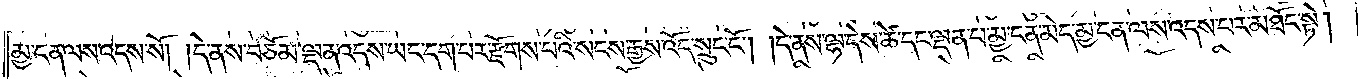མྱ་ངན་ལས་འདས་སོ། །དེ་ནས་བཅོམ་ལྡན་འདས་ཡང་དག་པར་རྫོགས་པའི་སངས་རྒྱས་འོད་སྲུང་ངོ༌། །དེ་ནས་ལྷ་དེས་ཚེ་དང་ལྡན་པ་མྱ་ངན་མེད་མྱ་ངན་ལས་འདས་པར་མཐོང་སྟེ།
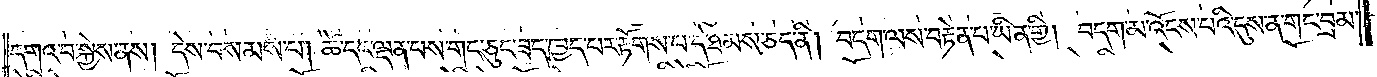དགའ་བ་སྐྱེས་ནས། དེས་བསམས་པ། ཚེ་དང་ལྡན་པས་གང་ཅུང་ཟད་ཁྱད་པར་རྟོགས་པ་དེ་ཐམས་ཅད་ནི། བདག་ལས་བརྟེན་པ་ཡིན་གྱི། བདག་མ་འོངས་པའི་དུས་ན་གང་བྲམ་
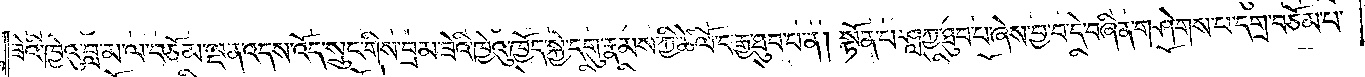ཟེའི་ཁྱེའུ་བླ་མ་ལ་བཅོམ་ལྡན་འདས་འོད་སྲུང་གིས་བྲམ་ཟེའི་ཁྱེའུ་ཁྱོད་སྐྱེ་དགུ་རྣམས་ཀྱི་ཚེ་ལོ་བརྒྱ་ཐུབ་པ་ན། སྟོན་པ་ཤཱཀྱ་ཐུབ་པ་ཞེས་བྱ་བ་དེ་བཞིན་གཤེགས་པ་དགྲ་བཅོམ་པ་
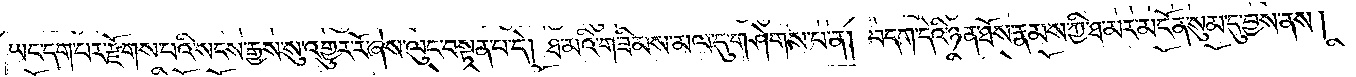ཡང་དག་པར་རྫོགས་པའི་སངས་རྒྱས་སུ་འགྱུར་རོ་ཞེས་ལུང་བསྟན་པ་དེ། ཐ་མའི་གཟིམས་མལ་དུ་གཤེགས་པ་ན། བདག་དེའི་ཉན་ཐོས་རྣམས་ཀྱི་ཐ་མར་མངོན་སུམ་དུ་བྱས་ནས།
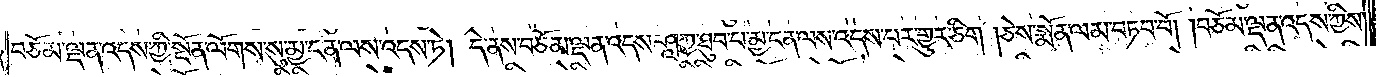བཅོམ་ལྡན་འདས་ཀྱི་སྔོན་ལོགས་སུ་མྱ་ངན་ལས་འདས་ཏེ། དེ་ནས་བཅོམ་ལྡན་འདས་ཤཱཀྱ་ཐུབ་པ་མྱ་ངན་ལས་འདས་པར་གྱུར་ཅིག །ཅེས་སྨོན་ལམ་བཏབ་བོ། །བཅོམ་ལྡན་འདས་ཀྱིས་
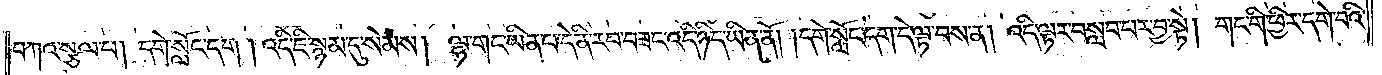བཀའ་སྩལ་པ། དགེ་སློང་དག །འདི་ཇི་སྙམ་དུ་སེམས། ལྷ་གང་ཡིན་པ་དེ་ནི་རབ་བཟང་འདི་ཉིད་ཡིན་ནོ། །དགེ་སློང་དག་དེ་ལྟ་བས་ན། འདི་ལྟར་བསླབ་པར་བྱ་སྟེ། གང་གི་ཕྱིར་དགེ་བའི་
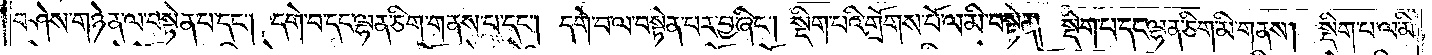བཤེས་གཉེན་ལ་བསྟེན་པ་དང༌། དགེ་བ་དང་ལྷན་ཅིག་གནས་པ་དང༌། དགེ་བ་ལ་བསྟེན་པར་བྱ་ཞིང༌། སྡིག་པའི་གྲོགས་པོ་ལ་མི་བསྟེན། སྡིག་པ་དང་ལྷན་ཅིག་མི་གནས། སྡིག་པ་ལ་མི་
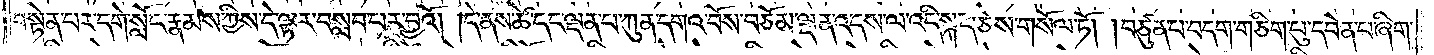བསྟེན་པར་དགེ་སློང་རྣམས་ཀྱིས་དེ་ལྟར་བསླབ་པར་བྱའོ། །དེ་ནས་ཚེ་དང་ལྡན་པ་ཀུན་དགའ་བོས་བཅོམ་ལྡན་འདས་ལ་འདི་སྐད་ཅེས་གསོལ་ཏོ། །བཙུན་པ་བདག་གཅིག་པུ་དབེན་པ་ཞིག་
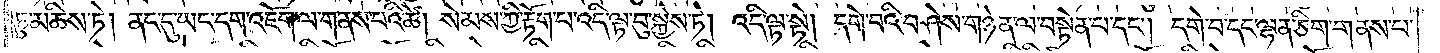ཏུ་མཆིས་ཏེ། ནང་དུ་ཡང་དག་འཇོག་ལ་གནས་པའི་ཚེ། སེམས་ཀྱི་རྟོག་པ་འདི་ལྟ་བུ་སྐྱེས་ཏེ། འདི་ལྟ་སྟེ། དགེ་བའི་བཤེས་གཉེན་ལ་བསྟེན་པ་དང༌། དགེ་བ་དང་ལྷན་ཅིག་གནས་པ་
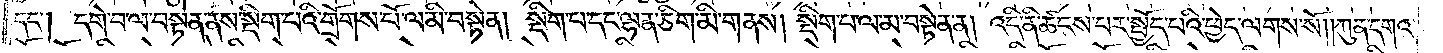དང༌། དགེ་བ་ལ་བསྟེན་ནས་སྡིག་པའི་གྲོགས་པོ་ལ་མི་བསྟེན། སྡིག་པ་དང་ལྷན་ཅིག་མི་གནས། སྡིག་པ་ལ་མ་བསྟེན་ན། འདི་ནི་ཚངས་པར་སྤྱོད་པའི་ཕྱེད་ལགས་སོ། །ཀུན་དགའ་
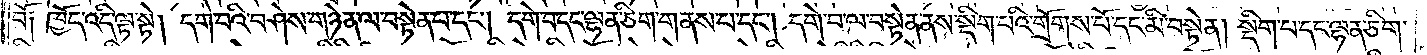བོ༑ ཁྱོད་འདི་ལྟ་སྟེ། དགེ་བའི་བཤེས་གཉེན་ལ་བསྟེན་པ་དང༌། དགེ་བ་དང་ལྷན་ཅིག་གནས་པ་དང༌། དགེ་བ་ལ་བསྟེན་ནས་སྡིག་པའི་གྲོགས་པོ་དང་མི་བསྟེན། སྡིག་པ་དང་ལྷན་ཅིག་
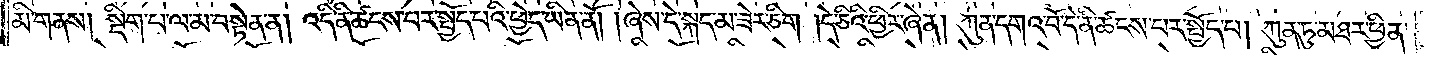མི་གནས། སྡིག་པ་ལ་མ་བསྟེན་ན། འདི་ནི་ཚངས་པར་སྤྱོད་པའི་ཕྱེད་ཡིན་ནོ། །ཞེས་དེ་སྐད་མ་ཟེར་ཅིག །དེ་ཅིའི་ཕྱིར་ཞེན། ཀུན་དགའ་བོ་དེ་ནི་ཚངས་པར་སྤྱོད་པ། ཀུན་ཏུ་མཐར་ཕྱིན་
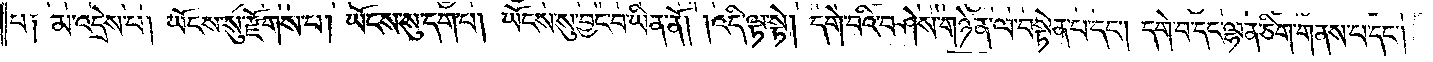པ༑ མ་འདྲེས་པ། ཡོངས་སུ་རྫོགས་པ། ཡོངས་སུ་དག་པ། ཡོངས་སུ་བྱང་བ་ཡིན་ནོ། །འདི་ལྟ་སྟེ། དགེ་བའི་བཤེས་གཉེན་ལ་བསྟེན་པ་དང༌། དགེ་བ་དང་ལྷན་ཅིག་གནས་པ་དང༌།
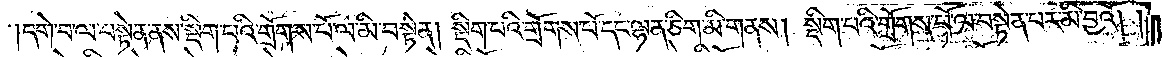དགེ་བ་ལ་བསྟེན་ནས་སྡིག་པའི་གྲོགས་པོ་ལ་མི་བསྟེན། སྡིག་པའི་གྲོགས་པོ་དང་ལྷན་ཅིག་མི་གནས། སྡིག་པའི་གྲོགས་པོ་ལ་བསྟེན་པར་མི་བྱའོ། །
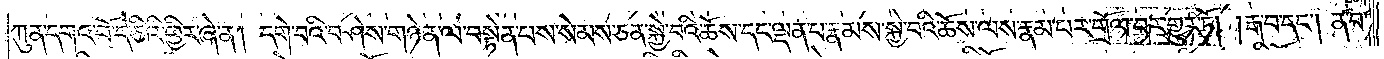ཀུན་དགའ་བོ་དེ་ཅིའི་ཕྱིར་ཞེ་ན། དགེ་བའི་བཤེས་གཉེན་ལ་བསྟེན་པས་སེམས་ཅན་སྐྱེ་བའི་ཆོས་དང་ལྡན་པ་རྣམས་སྐྱེ་བའི་ཆོས་ལས་རྣམ་པར་གྲོལ་བར་གྱུར་ཏོ། །རྒ་བ་དང༌། ན་བ་
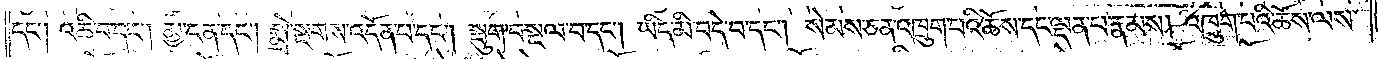དང༌། འཆི་བ་དང༌། མྱ་ངན་དང༌། སྨྲེ་སྔགས་འདོན་པ་དང༌། སྡུག་བསྔལ་བ་དང༌། ཡིད་མི་བདེ་བ་དང༌། སེམས་ཅན་འཁྲུག་པའི་ཆོས་དང་ལྡན་པ་རྣམས། འཁྲུག་པའི་ཆོས་ལས་
